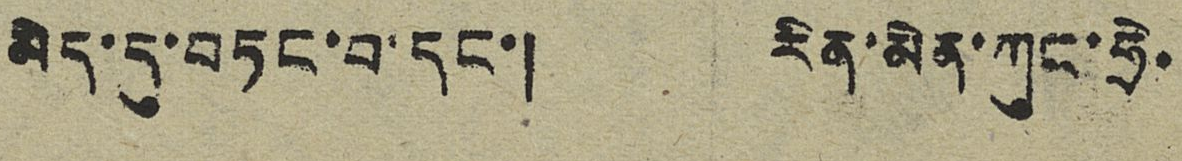མིད་དུ་བཏང་བ་དང་། རིན་མེན་ཀུང་ཧྲེ་
